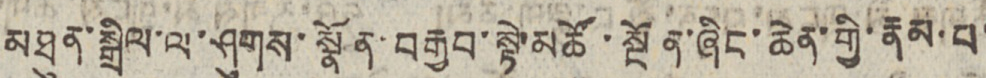མཐུན་སྒྲིལ་ལ་ཤུགས་སྣོན་བརྒྱབ་སྟེ་མཚོ་སྔོན་ཞིང་ཆེན་གྱི་རྣམ་པ་
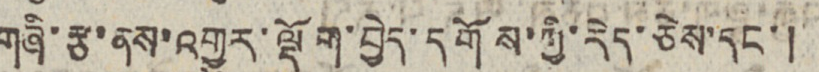གཞི་རྩ་ནས་འགྱུར་ལྡོག་བྱེད་དགོས་ཀྱི་རེད་ཅེས་དང་།
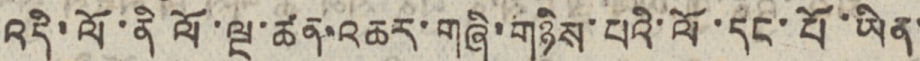འདི་ལོ་ནི ལོ་ལྔ་ཚན་འཆར་གཞི་གཉིས་པའི་ལོ་དང་པོ་ཡིན་
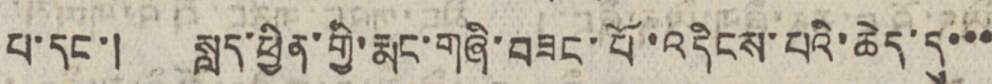པ་དང་། སླད་ཕྱིན་གྱི་རྨང་གཞི་བཟང་པོ་འདིངས་པའི་ཆེད་དུ་་་
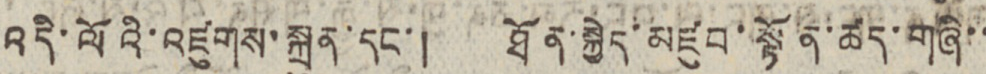འདི་ལོའི་འཛུགས་སྐྲུན་དང་། ཐོན་སྐྱེད་མཛུབ་སྟོན་ཚད་གཞི་་
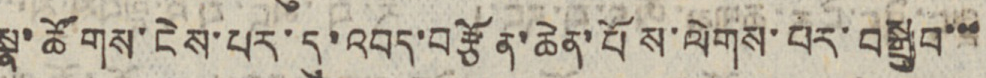སྣ་ཚོགས་ངེས་པར་དུ་འབད་བརྩོན་ཆེན་པོས་ལེགས་པར་བསྒྲུབ་་་
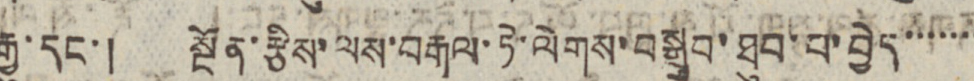རྒྱུ་དང་། སྔོན་རྩིས་ལས་བརྒལ་ཏེ་ལེགས་བསྒྲུབ་ཐུབ་པ་བྱེད་་་་་་་
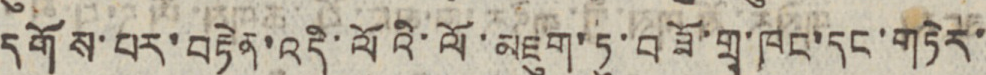དགོས་པར་བརྟེན་འདི་ལོའི་ལོ་མཇུག་ཏུ་བཟོ་གྲྭ་ཁང་དང་གཏེར་
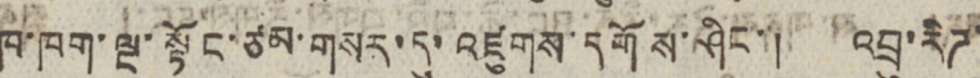ཁ་ཁག་ལྔ་སྟོང་ཙམ་གསར་དུ་འཛུགས་དགོས་ཤིང་། འབྲུ་རིཊ་
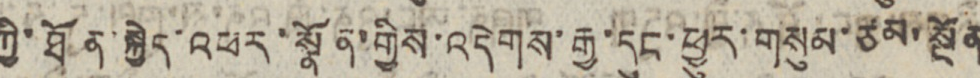ཀྱི་ཐོན་སྐྱེད་འཕར་སྣོན་གྱིས་འདེགས་རྒྱ་དུང་ཕྱུར་གསུམ་ཙམ་སྔོན
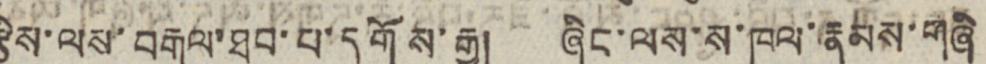རྩིས་ལས་བརྒལ་ཐུབ་པ་དགོས་རྒྱུ། ཞིང་ལས་ས་ཁུལ་རྣམས་གཞི
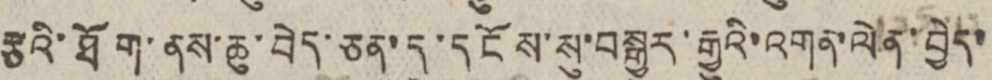རྩའི་ཐོག་ནས་ཆུ་བེད་ཅན་དུ་དངོས་སུ་བསྒྱུར་རྒྱུའི་འགན་ལེན་བྱེད་
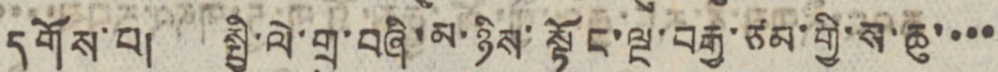དགོས་པ། སྤྱི་ལེ་གྲུ་བཞི་མ་ཉིས་སྟོང་ལྔ་བརྒྱ་ཙམ་གྱི་ས་ཆུ་་་་
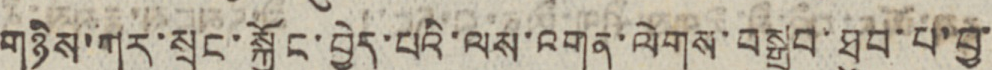གཉིས་ཀར་སྲུང་སྐྱོང་བྱེད་པའི་ལས་འགན་ལེགས་བསྒྲུབ་ཐུབ་པ་བྱ་
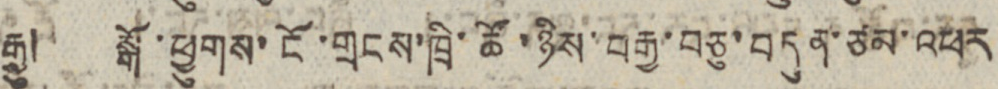རྒྱུ། སྒོ་ཕྱུགས་ངོ་གྲངས་ཁྲི་ཚོ་ཉིས་བརྒྱ་བཅུ་བདུན་ཙམ་འཕར
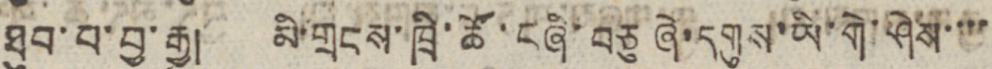ཐུབ་པ་བྱ་རྒྱུ། མི་གྲངས་ཁྲི་ཚོ་བཞི་བཅུ ཞེ་དགུས་ཡི་གེ་ཤེས་་་་
